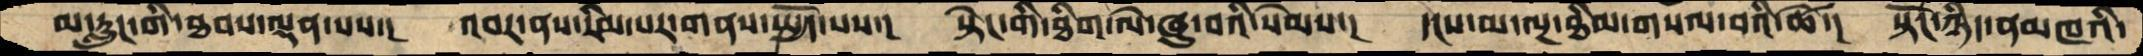མ་རླུང་གི་ཐབས་ལྡན་པས་།  འབར་ནས་རིམ་པར་གནས་སྤྱོད་པས་།  སྟེང་གི་ཐིག་ལེ་ཞུ་བའི་སེམས་།  དངས་མ་ལྔ་ཐིམ་གསལ་བའི་ཚེ་།  སྟོང་ཉིད་ནམཁའི་
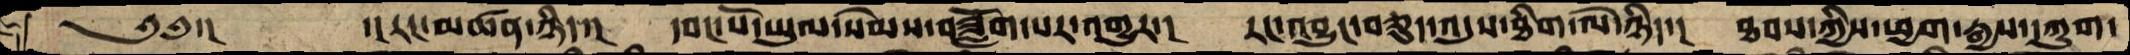༄༅་།   ་།རང་མཚན་ཉིད་།  དབང་པོ་ཡུལ་སེམས་བཟློག་པར་འགྱུར་།  རང་འབྱུང་བཅུད་འདུས་ཐིག་ལེ་ཉིད་།  ཐབས་ཀྱིས་ཕྱག་རྒྱས་དཀྱུག་
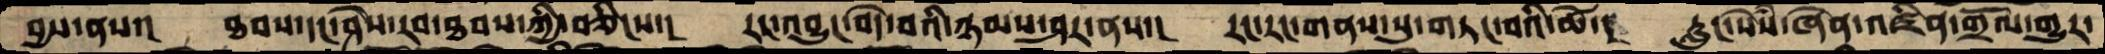བྱས་ནས་།   ཐབས་དང་ཤེས་རབ་ཐབས་ཀྱི་བཅིངས་།   རང་འབྱུང་བདེ་བའི་ཉམས་ཤར་ནས་།  རང་རང་གནས་སུ་གཏང་བའི་ཚེ་།  རླུང་སེཾས་ཞེན་འཛིན་གྲོལ་གྱུར་
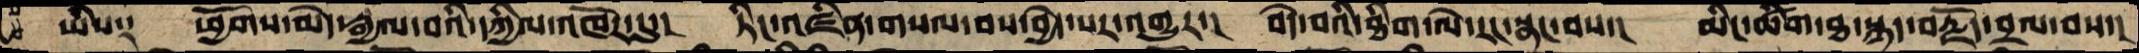ཡིས༑  ཕྱོགས་མེད་རྒྱལ་བའི་དཀྱིལ་འཁོར་དུ་།  ཏིང་འཛིན་གསལ་བས་བྱེད་པར་འགྱུར་།  བདེ་བའི་ཐིག་ལེ་རང་སྣང་བས་།  མིང་ཚིག་ཐ་སྙད་བརྗོད་བྲལ་བས་།
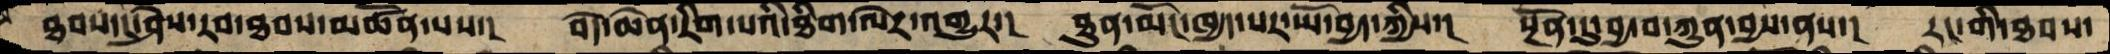ཐབས་དང་ཤེས་རབ་ཐབས་མཚོན་པས་།  བདེ་ཆེན་རིག་པའི་ཐིག་ལེར་འགྱུར་།  ཐུན་མོང་ཁྱད་པར་ཡོ་བྱད་ཀྱིས་།  སྔོན་དུ་བྱ་བ་ཀུན་བྱས་ནས་།  རང་གི་ཐབས་
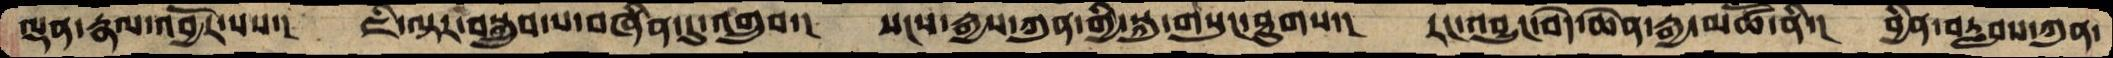ལྡན་རྣམ་འབྱོར་པས་།  ཇི་ལྟར་བསྒྲུབ་པ་བཞིན་དུ་འགྲུབ་།  སངས་རྒྱས་ཀུན་གྱི་སྐུ་གསུང་ཐུགས་།  རང་འབྱུང་བདེ་ཆེན་རྒྱ་མཚོ་ནི་།  བྱིན་བརླབས་ཀུན་
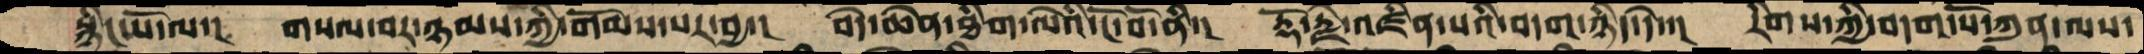སྙིང་པོ་ལ་།  གསལ་བར་ཉམས་ཀྱི་གོམས་པར་བྱ་།  བདེ་ཆེན་ཐིག་ལེའི་ངོ་བོ་ནི་།  རྡོ་རྗེ་འཛིན་པའི་བདག་ཉིད་དེ་།  རིགས་ཀྱི་བདག་པོ་ཀུན་ལས་
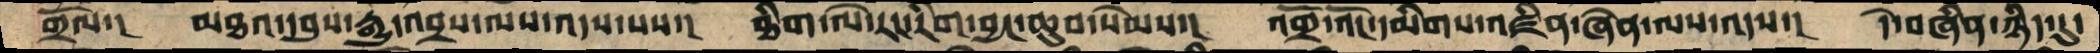གྲོལ་།  མཐའ་དབུས་རྒྱུ་འབྲས་ལས་འདས་པས་།  ཐིག་ལེ་རང་རིག་བྱང་ཆུབ་སེམས་།  འགྲོ་འངོ་དམིགས་འཛིན་ཞེན་ལས་འདས་།  དེ་བཞིན་ཉིད་དུ་
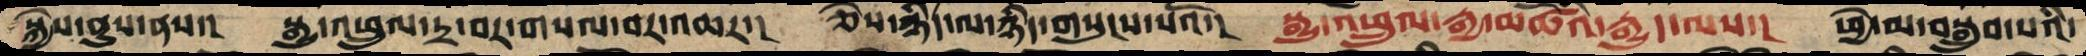སྐྱེས་ནུས་ནས་།   སྒྱུ་འཕྲུལ་དྲ་བར་གསལ་བར་འཆར་།  ཅེས་ཉིད་ལ་ཉིད་གསུངས་པའོ་།  སྒྱུ་འཕྲུལ་རྒྱ་མཚོའི་རྒྱུད་ལས་།  ཕྱེ་མ་བསྒྲུབ་པའི་
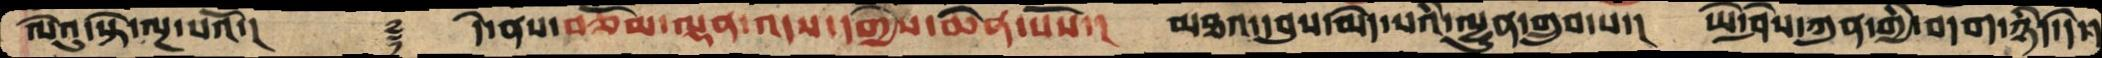ལེའུ་སྟེ་ལྔ་པའོ་།      ࿑    དེ་ནས་བཅོམ་ལྡན་འདས་དགྱེས་ཆེན་པོས་།  མཐའ་དབུས་མེད་པའི་ལྷུན་གྲུབ་པ་།  ཡེ་ཤེས་ཀུན་གྱི་བདག་ཉིད་དེ་།
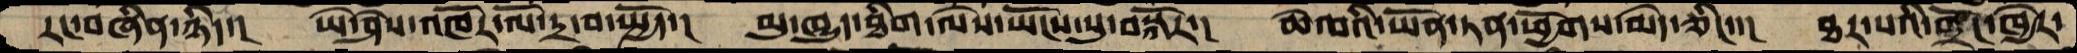རང་བཞིན་ཉིད་།  ཡེ་ཤེས་འཁོར་ལོ་དྲ་བ་སྤྱོད་།  མུ་ཁྱུད་ཐིག་ལེས་ཡོངས་སུ་བསྐོར་།  ཆེ་བའི་ཡོན་ཏན་ཕྱོགས་མེད་ཅིང་་།  ཐར་པའི་གྲོང་ཁྱེར་
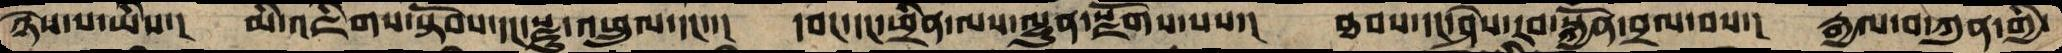ཉེས་པ་ཡིས་།  མི་འཇིགས་སྟོབས་དང་སྫུ་འཕྲུལ་དང་་།  དབང་དང་ཕྲིན་ལས་ལྷུན་སྫོགས་པས་།  ཐབས་དང་ཤེས་རབ་སྐྱོན་བྲལ་བས་།  རྒྱལ་བ་ཀུན་གྱི་
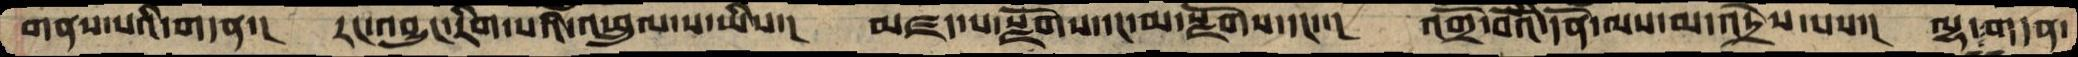གནས་པའི་གདན་།  རང་འབྱུང་རིག་པའི་འཕྲུལ་པ་ཡིས་།  མཛད་པ་སྫོགས་དང་མ་སྫོགས་དང་་།  འགྲོ་བའི་དོན་ལས་མ་འདྲེས་པས་།  ལྷ་གདན་
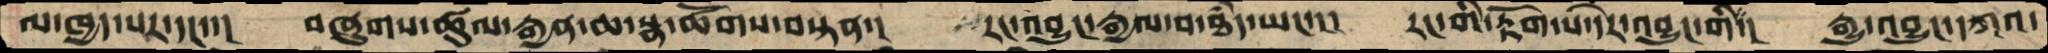ལ་ཁྱད་པར་དང་་།  བཞུགས་ཚུལ་རྒྱན་ཆ་སྣ་ཚོགས་བསྟན་།  རང་འབྱུང་རྒྱལ་བ་ཐཾད་ཡང་་།  རང་གི་རྟོག་པ་དེར་འབྱུང་གི་།  རྒྱུ་འབྱུང་དཀའ་
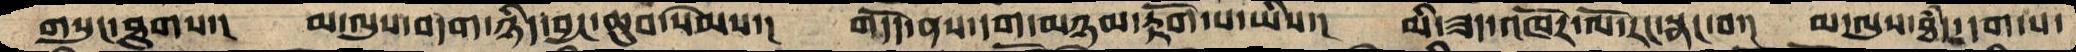གསུང་ཐུགས་། མ་ལུས་བདག་ཉིད་བྱང་ཆུབ་སེམས་།  གདོད་ནས་དག་མཉམ་རྟོག་པ་ཡིས་། མི་ཟད་འཁོར་ལོ་རང་སྣང་བ་།  མ་ལུས་ཐཾད་དག་པ་
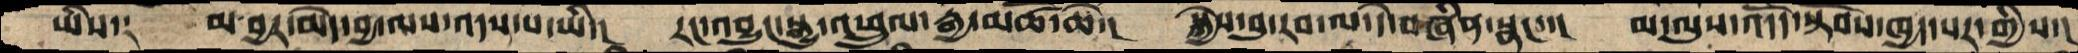ཡིས༑   མབྱར་མེད་བྱ་ལས་འདས་པ་ཡི་།  རང་འབྱུང་སྒྱུ་འཕྲུལ་རྒྱ་མཚོ་ཆེ་།  སྐྱེས་བུ་རབ་ལ་དེ་བཞིན་སྣང་་། མ་ལུས་འདོད་སྟོབས་ཁྱད་པར་གྱིས་།
